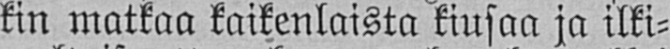kin matkaa kaikenlaista kiusaa ja ilki-
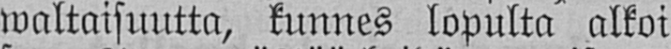waltaisuutta, kunnes lopulta alkoi
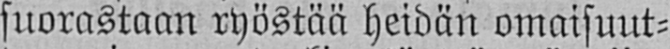suorastaan ryöstää heidän omaisuut-
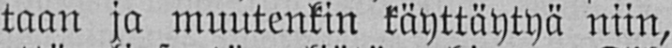taan ja muutenkin käyttäytyä niin,
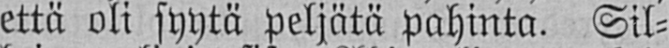että oli syytä peljätä pahinta. Sil-
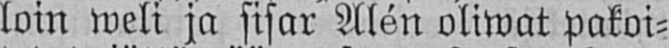loin weli ja sisar Alén oliwat pakoi-
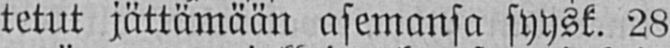tetut jättämään asemansa syysk. 28
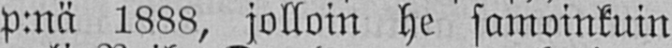p:nä 1888, jolloin he samoinkuin
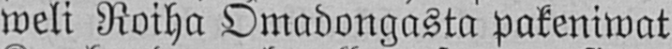weli Roiha Omadongasta pakeniwat
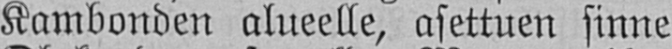Kambonden alueelle, asettuen sinne
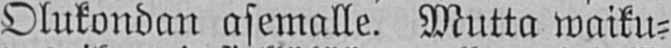Olukondan asemalle. Mutta waiku-
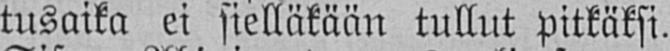tusaika ei sielläkään tullut pitkäksi.
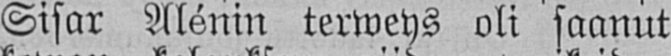Sisar Alénin terweys oli saanut
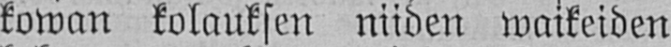kowan kolauksen niiden waikeiden
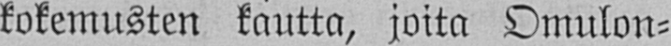kokemusten kautta, joita Omulon-
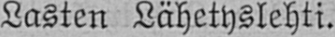Lasten Lähetyslehti.
